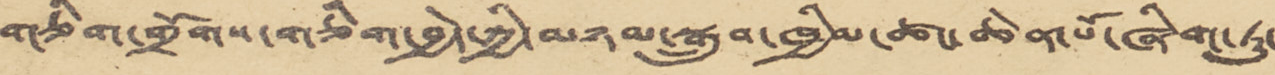གཅིག་གྲོགས་གཅིག་བྱེད་ཀྱི་མཉམ་སྒྲུབ་ཁྱིམ་ཚང་ཆེན་པོ་ཞིག་ཏུ་
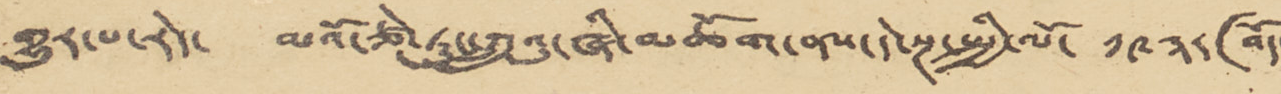གྱུར་པ་རེད་ མའོ་ཙེ་ཏུང་ཀྲུའུ་ཞི་མཆོག་ནས་དེ་སྔ་སྤྱི་ལོ་ ༡༩༣༨ (བོད་
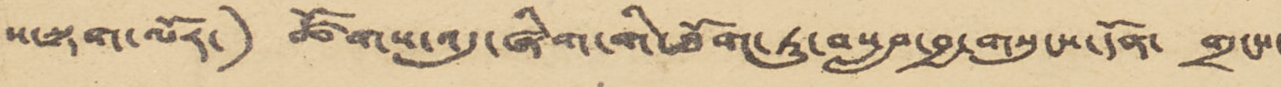ས་སྟག་ལོར་) ཚོགས་འདུ་ཞིག་གི་ཐོག་ཏུ་བསལབ་བྱ་གསུངས་དོན་ གྲངས་
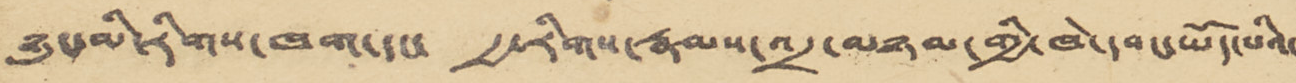ཉུང་མི་རིགས་ཁག་དང་ རྒྱ་རིགས་རྣམས་འདྲ་མཉམ་གྱི་ཁེ་དབང་ཡོད་པའི་
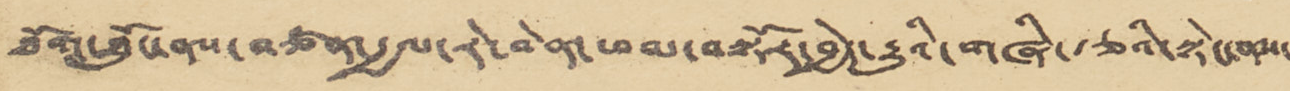ཐོག་ཐོུང་ནས་བཙན་རྒྱལ་རེ་བེན་ཕམ་བསྟོར་བྱེད་རྒྱུའི་གཞི་རྩའི་སྟེང་ནས་
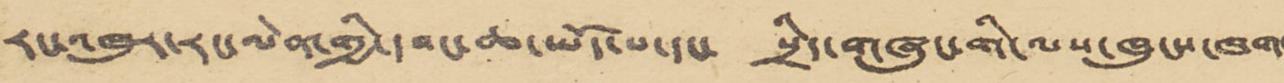རང་འཁུར་རང་ལེན་གྱི་དབང་ཆ་ཡོད་པ་དང་ སྲིད་གཞུང་གི་ལས་ཁུངས་ཁག་
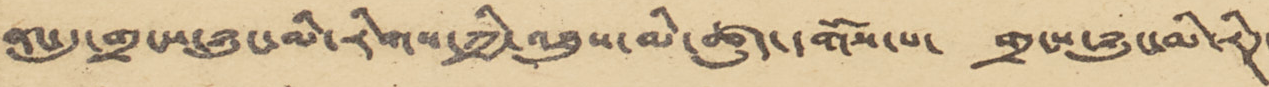ནང་དུ་གྲངས་ཉུང་མི་རིགས་ཀྱི་འཐུས་མི་ཚུད་དགོས་པ་ གྲངས་ཉུང་མི་རིཊ་
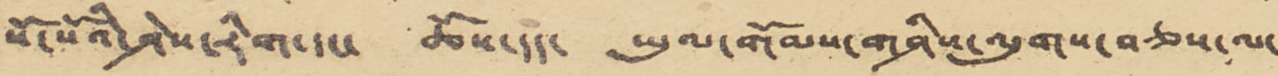སོ་སོའི་ཤེས་རིག་དང་ ཆོས་དང་ ཡུལ་གོམས་གཤིས་ལུགས་བཅས་ལ་
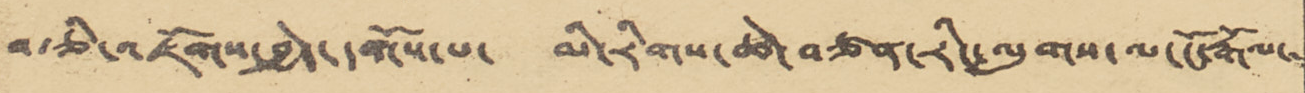བརྩི་འཇོགས་བྱེད་དགོས་པ་ མི་རིགས་ཆེ་བཙན་རིང་ལུགས་ལ་ངོ་རྒོལ་
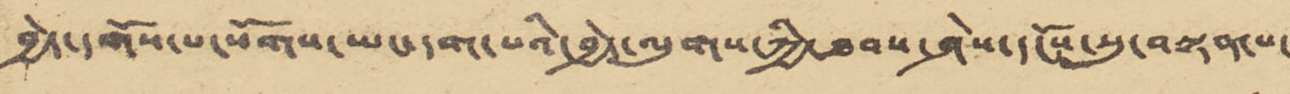བྱེད་དགོས་པ་སོགས་ཡང་དག་པའི་བྱེད་ལུགས་ཀྱི་ཐབས་ཤེས་དངོས་སུ་བསྟན་པ་
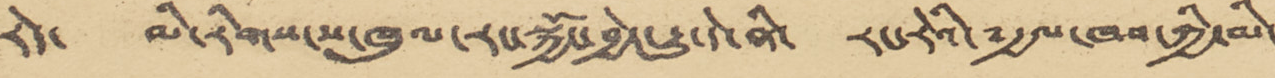རེད་ མི་རིགས་ས་ཁུལ་རང་སྐྱོང་བྱེད་རྒྱུ་དེ་ནི་ རང་རེའི་༸རྒྱལ་ཁབ་ཀྱི་མི་
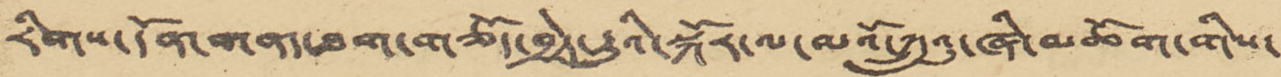རིགས་དོན་གནད་ཐག་གཅོད་བྱེད་རྒྱུའི་སྐོར་ལ་མའོ་ཀྲུའུ་ཞི་མཆོག་གིས་
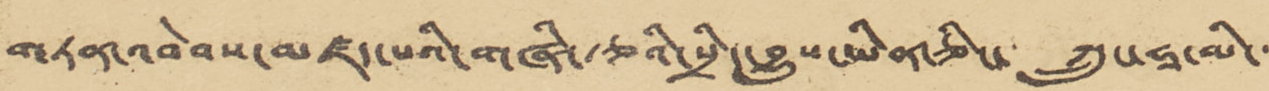གཏན་འབེབས་མཛད་པའི་གཞི་རྩའི་སྲིད་བྱུས་ཡིན་ཅིང་ ཀྲུང་ཧྭ་མི་་་
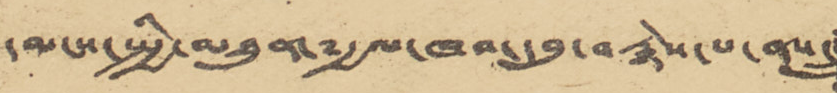དམངས་སྤྱི་མཐུན་༸རྒྱལ་ཁབ་དབུ་བརྙེས་པ་ནས་
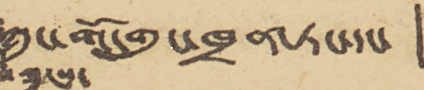ཀྲུང་གོ་གུང་ཁྲན་ཏང་དང་ །
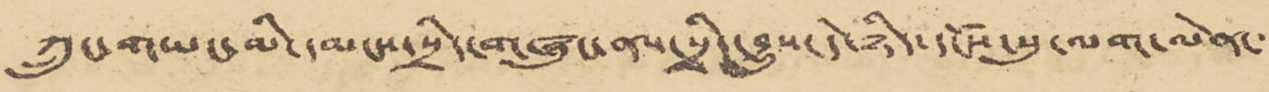ཀྲུང་གཡང་མི་དམངས་སྲིད་གཞུང་ནས་སྲིད་བྱུས་དེ་ཉིད་དངོས་སུ་ལག་ལེན་་
